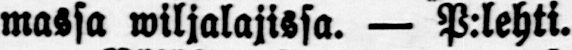massa wiljalajissa. — P:lehti.
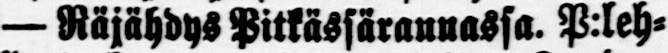— Räjähdys Pitkässärannassa. P:leh-
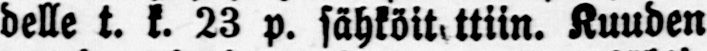delle t. k. 23 p. sähköitettiin. Kuuden
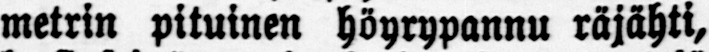metrin pituinen höyrypannu räjähti,
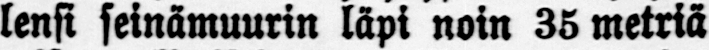lensi seinämuurin läpi noin 35 metriä
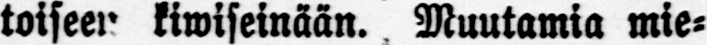toiseen kiwiseinään. Muutamia mie-
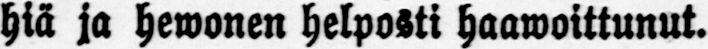hiä ja hewonen helposti haawoittunut.
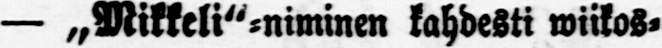— „Mikkeli"-niminen kahdesti wiikos-
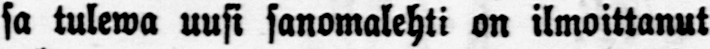sa tulewa uusi sanomalehti on ilmoittanut
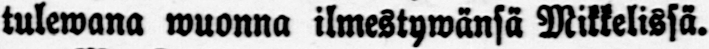tulewana wuonna ilmestywänsä Mikkelissä.
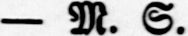— M. S.
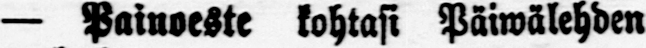— Painoeste kohtasi Päiwälehden
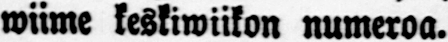wiime keskiwiikon numeroa.
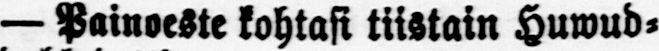— Painoeste kohtasi tiistain Huwud-
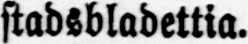stadsbladettia.
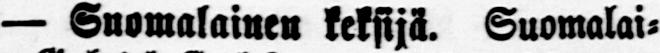— Suomalainen keksijä. Suomalai-
